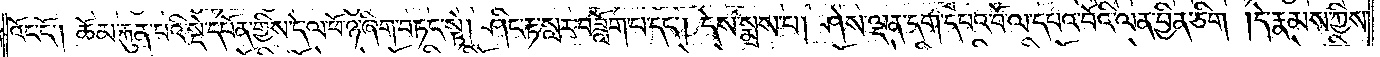འོང་ངོ༌། ཆོམ་རྐུན་པའི་སྡེ་དཔོན་གྱིས་དེ་ལ་ཕོ་ཉ་ཞིག་བཏང་སྟེ། ཤིང་རྟ་སླར་བཟློག་པ་དང༌། དེས་སྨྲས་པ། ཤེས་ལྡན་དག་དཔའ་བོ་ལ་དཔའ་བོའི་ལན་བྱིན་ཅིག །དེ་རྣམས་ཀྱིས་
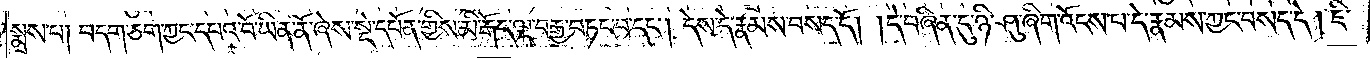སྨྲས་པ། བདག་ཅག་ཀྱང་དཔའ་བོ་ཡིན་ནོ་ཞེས་སྡེ་དཔོན་གྱིས་མི་རྒོད་ལྔ་བརྒྱ་བཏང་བ་དང༌། དེས་དེ་རྣམས་བསད་དོ། །དེ་བཞིན་དུ་ཉི་ཤུ་ཞིག་འོངས་པ་དེ་རྣམས་ཀྱང་བསད་དེ། ཇི་
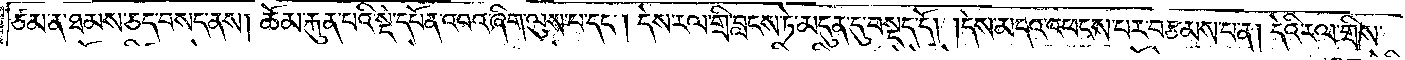ཙམ་ན་ཐམས་ཅད་བསད་ནས། ཆོམ་རྐུན་པའི་སྡེ་དཔོན་འབའ་ཞིག་ལུས་པ་དང༌། དེས་རལ་གྲི་བླངས་ཏེ་མདུན་དུ་བསྡད་དོ། །དེས་མདའ་འཕངས་པར་བརྩམས་པ་ན། དེའི་རལ་གྲིས་
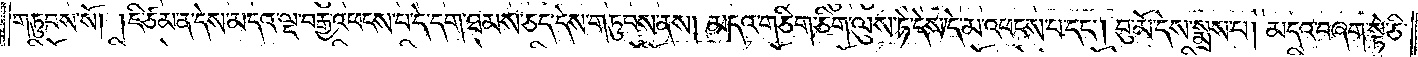གཏུབས་སོ། །ཇི་ཙམ་ན་དེས་མདའ་ལྔ་བརྒྱ་འཕངས་པ་དེ་དག་ཐམས་ཅད་དེས་གཏུབས་ནས། མདའ་གཅིག་ཅིག་ལུས་ཏེ་དེས་དེ་མ་འཕངས་པ་དང༌། བུ་མོ་དེས་སྨྲས་པ། མདའ་བཞག་སྟེ་ཅི་
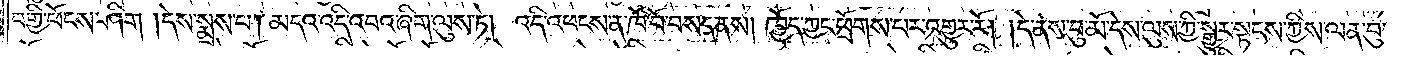བགྱི་ཕོངས་ཤིག །དེས་སྨྲས་པ། མདའ་འདི་འབའ་ཞིག་ལུས་ཏེ། འདི་འཕངས་ན་ཁོ་བོ་བསད་ནས། ཁྱོད་ཀྱང་ཕྲོགས་པར་འགྱུར་རོ། །དེ་ནས་བུ་མོ་དེས་ལུས་ཀྱི་སྒྱུར་སྟངས་ཀྱིས་ལན་བུ་
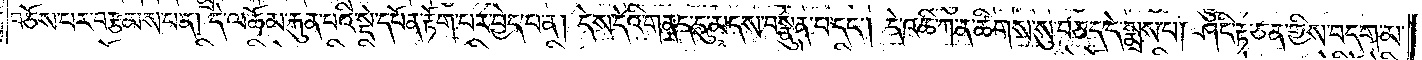བཅོས་པར་བརྩམས་པ་ན། དེ་ལ་ཆོམ་རྐུན་པའི་སྡེ་དཔོན་རྟོག་པར་བྱེད་པ་ན། དེས་དེའི་གནད་དུ་མདས་བསྣུན་པ་དང༌། དེ་འཆི་ཀ་ན་ཚིགས་སུ་བཅད་དེ་སྨྲས་པ། ཤིང་རྟ་ཅན་གྱིས་བདག་མ་
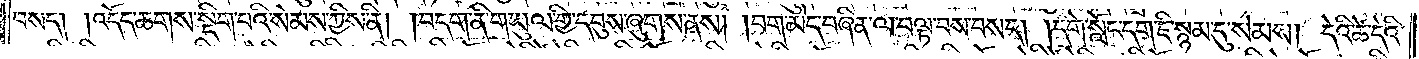བསད། །འདོད་ཆགས་སྡིག་པའི་སེམས་ཀྱིས་ནི། །བདག་ནི་གཡུལ་གྱི་དབུས་ཞུགས་ནས། །བག་མེད་བཞིན་ལ་བལྟ་བས་བསད། །དགེ་སློང་དག་ཇི་སྙམ་དུ་སེམས། དེའི་ཚེ་དེའི་
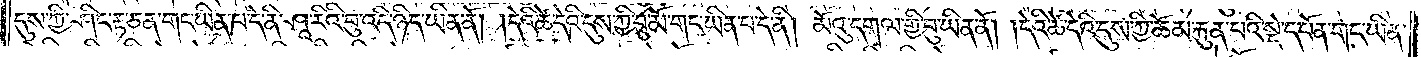དུས་ཀྱི་ཤིང་རྟ་ཅན་གང་ཡིན་པ་དེ་ནི་ཤཱ་རིའི་བུ་འདི་ཉིད་ཡིན་ནོ། །དེའི་ཚེ་དེའི་དུས་ཀྱི་བུ་མོ་གང་ཡིན་པ་དེ་ནི། མོའུ་དགལ་གྱི་བུ་ཡིན་ནོ། །དེའི་ཚེ་དེའི་དུས་ཀྱི་ཆོམ་རྐུན་པའི་སྡེ་དཔོན་གང་ཡིན་
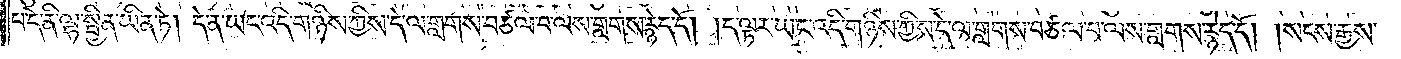པ་དེ་ནི་ལྷ་སྦྱིན་ཡིན་ཏེ། དེ་ན་ཡང་འདི་གཉིས་ཀྱིས་དེ་ལ་གླགས་བཙལ་བ་ལས་གླགས་རྙེད་དོ། །ད་ལྟར་ཡང་འདི་གཉིས་ཀྱི་ས་དེ་ལ་གླགས་བཙལ་བ་ལས་གླགས་རྙེད་དོ། །སངས་རྒྱས་
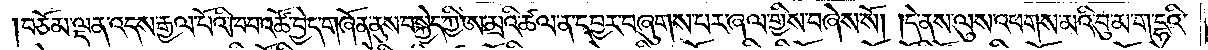བཅོམ་ལྡན་འདས་རྒྱལ་པོའི་ཁབ་འཚོ་བྱེད་གཞོན་ནུས་བསྐྱེད་ཀྱི་ཨ་མྲའི་ཚལ་ན་དབྱར་བཞུགས་པར་ཞལ་གྱིས་བཞེས་སོ། །དེ་ནས་ལུས་འཕགས་མའི་བུ་མ་ག་དྷའི་
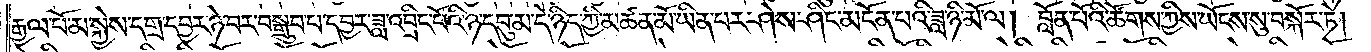རྒྱལ་པོ་མ་སྐྱེས་དགྲ་དབྱར་ཉེ་བར་བསྒྲུབ་པ་དབྱར་ཟླ་འབྲིང་པོའི་ཉ་དབུ་མ་དེ་ཉིད་ཀྱི་མཚན་མོ་ཡིན་པར་ཤེས་ཤིང་མངོན་པའི་ཟླ་ཉི་མོ་ལ། བློན་པོའི་ཚོགས་ཀྱིས་ཡོངས་སུ་བསྐོར་ཏེ།
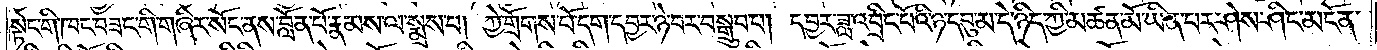སྟེང་གི་ཁང་བཟང་གི་གཞིར་སོང་ནས་བློན་པོ་རྣམས་ལ་སྨྲས་པ། ཀྱེ་གྲོགས་པོ་དག་དབྱར་ཉེ་བར་བསྒྲུབ་པ། དབྱར་ཟླ་འབྲིང་པོའི་ཉ་དབུ་མ་དེ་ཉིད་ཀྱི་མཚན་མོ་ཡིན་པར་ཤེས་ཤིང་མངོན་
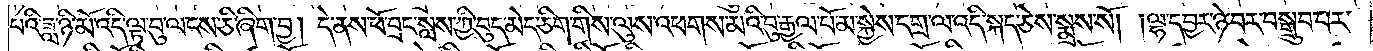པའི་ཟླ་ཉི་མོ་འདི་ལྟ་བུ་ལངས་ཅི་ཞིག་བྱ། དེ་ནས་ཕོ་བྲང་སླས་ཀྱི་བུད་མེད་ཅིག་གིས་ལུས་འཕགས་མའི་བུ་རྒྱལ་པོ་མ་སྐྱེས་དགྲ་ལ་འདི་སྐད་ཅེས་སྨྲས་སོ། །ལྷ་དབྱར་ཉེ་བར་བསྒྲུབ་པར་
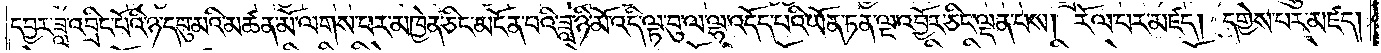དབྱར་ཟླ་འབྲིང་པོའི་ཉ་དབུ་མའི་མཚན་མོ་ལགས་པར་མཁྱེན་ཅིང་མངོན་པའི་ཟླ་ཉི་མོ་འདི་ལྟ་བུ་ལ་ལྷ་འདོད་པའི་ཡོན་ཏན་ལྔ་འབྱོར་ཅིང་ལྡན་པས། རོལ་པར་མཛད། དགྱེས་པར་མཛད།
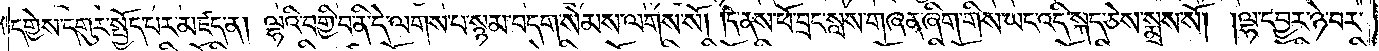དགྱེས་དགུར་སྤྱོད་པར་མཛད་ན། ལྷའི་བགྱི་བ་ནི་དེ་ལགས་པ་སྙམ་བདག་སེམས་ལགས་སོ། །དེ་ནས་ཕོ་བྲང་སླས་གཞན་ཞིག་གིས་ཡང་འདི་སྐད་ཅེས་སྨྲས་སོ། །ལྷ་དབྱར་ཉེ་བར་
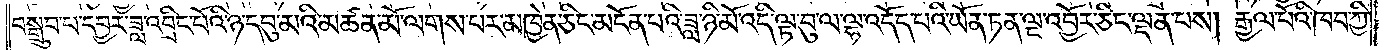བསྒྲུབ་པ་དབྱར་ཟླ་འབྲིང་པོའི་ཉ་དབུ་མའི་མཚན་མོ་ལགས་པར་མཁྱེན་ཅིང་མངོན་པའི་ཟླ་ཉི་མོ་འདི་ལྟ་བུ་ལ་ལྷ་འདོད་པའི་ཡོན་ཏན་ལྔ་འབྱོར་ཅིང་ལྡན་པས། རྒྱལ་པོའི་ཁབ་ཀྱི་
